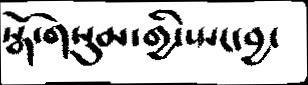སྒོ་གསུམ་གྱི་སྤང་བྱ་
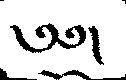༄༅།
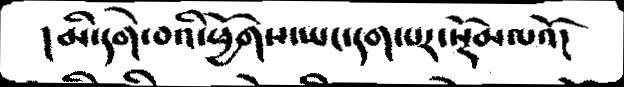།མི་དགེ་བའི་ཕྱོགས་ཡང་དག་པར་སྡོམ་པའོ།
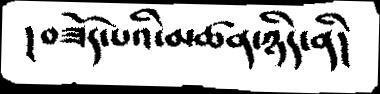།བཟོད་པའི་མཚན་ཉིད་ནི།
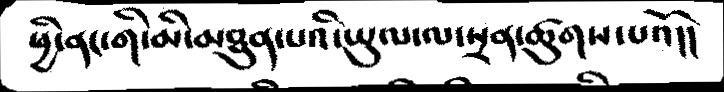ཕྱི་ནང་གི་མི་མཐུན་པའི་ཡུལ་ལ་སྲན་ཚུགས་པའོ།།
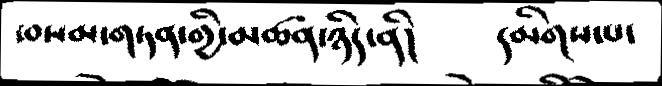་བསམ་གཏན་གྱི་མཚན་ཉིད་ནི།    དམིགས་པ་
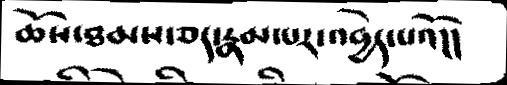ཆོས་ཐམས་ཅད་རྣམ་པར་འབྱེད་པའོ།།
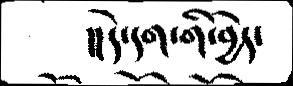།།དེ་དག་གི་བྱེད་
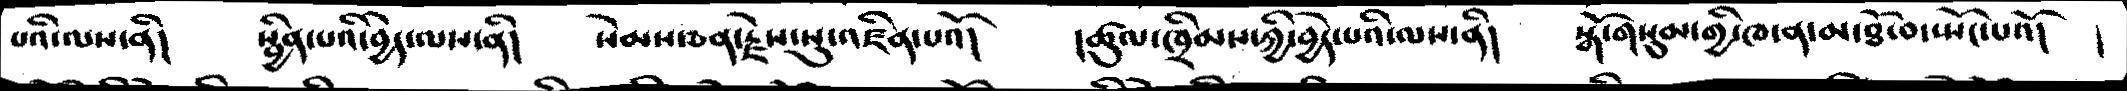པའི་ལས་ནི།   སྦྱིན་པའི་བྱེད་ལས་ནི།   སེམས་ཅན་རྗེས་སུ་འཛིན་པའོ།   །ཚུལ་ཁྲིམས་ཀྱི་བྱེད་པའི་ལས་ནི།   སྒོ་གསུམ་གྱི་ཁ་ན་མ་ཐོ་བ་སྤོང་པའོ།  །
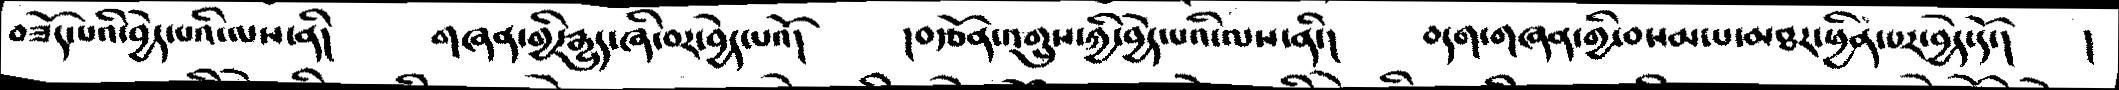བཟོད་པའི་བྱེད་པའི་ལས་ནི།   གཞན་གྱི་རྒྱུད་ཞི་བར་བྱེད་པའོ།   །བརྩོན་འགྲུས་ཀྱི་བྱེད་པའི་ལས་ནི།   བདག་གཞན་གྱི་བསམ་པ་མཐར་ཕྱིན་པར་བྱེད་དོ་།   །
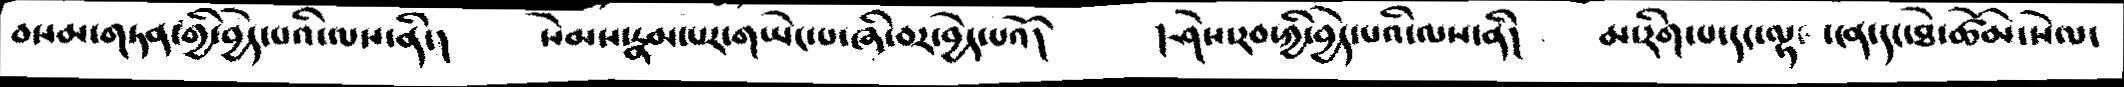བསམ་གཏན་གྱི་བྱེད་པའི་ལས་ནི་།   སེམས་རྣམ་པར་གཡེང་པ་ཞི་བར་བྱེད་པའོ།   །ཤེས་རབ་ཀྱི་བྱེད་པའི་ལས་ནི།   མ་རིག་པ་དང་ལྟ་ ངན་དང་ཐེ་ཚོམ་སེལ་
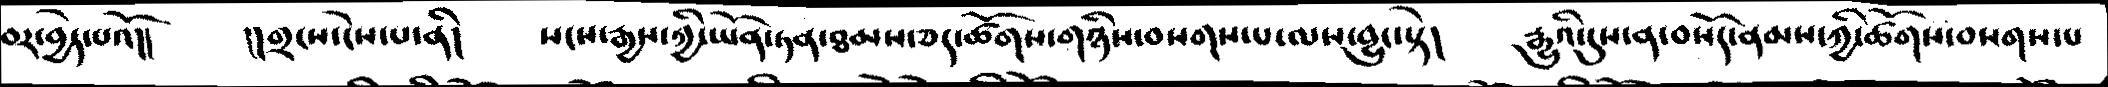བར་བྱེད་པའོ།།    །།གྲངས་ངེས་པ་ནི།   སངས་རྒྱས་ཀྱི་ཡོན་ཏན་ཐམས་ཅད་ཚོགས་གཉིས་བསགས་པ་ལས་བྱུང་སྟེ།   རྒྱུའི་དུས་ན་བསོད་ནམས་ཀྱི་ཚོགས་བསགས་པ
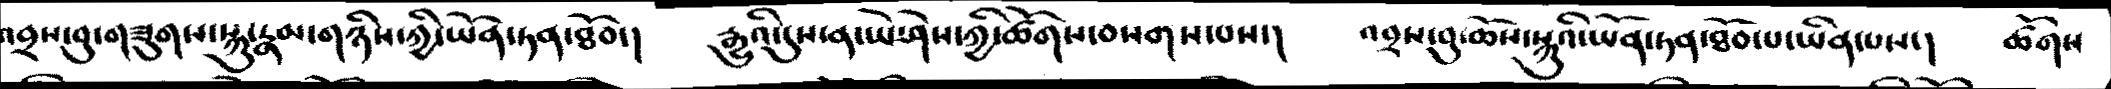འབྲས་བུ་གཟུགས་སྐུ་རྣམ་གཉིས་ཀྱི་ཡོན་ཏན་ཐོབ་།   རྒྱུའི་དུས་ན་ཡེ་ཤེས་ཀྱི་ཚོགས་བསགས་པས་།   འབྲས་བུ་ཆོས་སྐུའི་ཡོན་ཏན་ཐོབ་པ་ཡིན་པས་།  ཚོགས
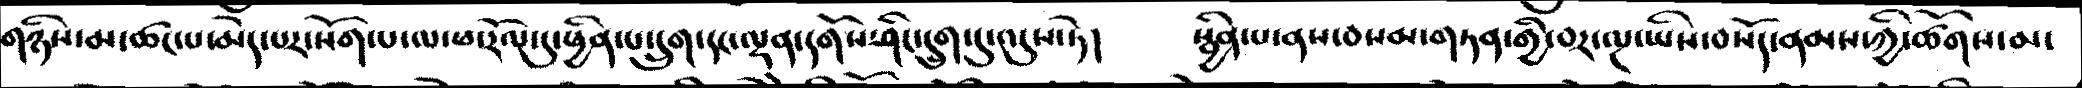གཉིས་མ་ཚང་བ་མེད་པར་སོག་པ་ལ་ཕ་རོལ་དུ་ཕྱིན་པ་དྲུག་དང་ལྡན་དགོས་ཤིང་དྲུག་དུ་འདུས་ཏེ།   སྦྱིན་པ་ནས་བསམ་གཏན་ཀྱི་བར་ལྔ་ཡིས་བསོད་ནམས་ཀྱི་ཚོགས་མ་
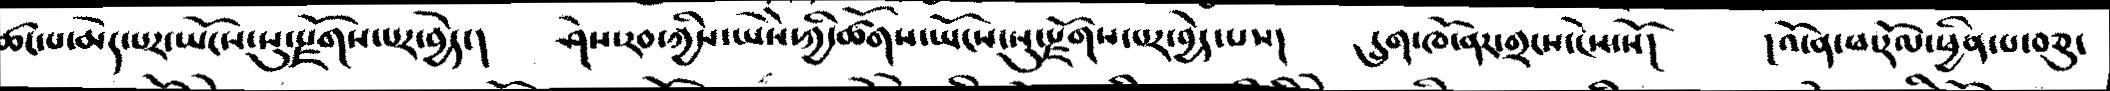ཚང་པ་མེད་པར་ཡོངས་སུ་རྫོགས་པར་བྱེད་།   ཤེས་རབ་ཀྱིས་ཡཻས་ཀྱི་ཚོགས་ཡོངས་སུ་རྫོགས་པར་བྱེད་པས།   དྲུག་ཁོ་ནར་གྲངས་ངེས་སོ།  །འོ་ན་ཕ་རོལ་ཕྱིན་པ་བཅུ་
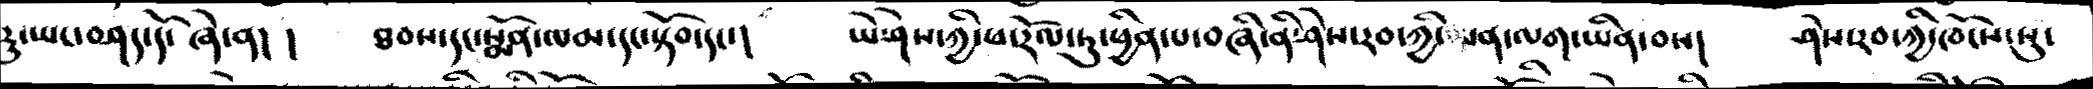རུ་ཡང་བཤད་དོ་ཞེ་ན། །    ཐབས་དང་སྨོན་ལམ་དང་སྟོབ་དང་།  ཡེ་ཤེས་ཀྱི་ཕ་རོལ་དུ་ཕྱིན་པ་བཞི་ནི་ཤེས་རབ་ཀྱི་ཡན་ལག་ཡིན་པས།   ཤེས་རབ་ཀྱི་ཁོངས་སུ་
